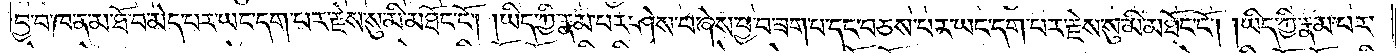བྱ་བ་ཁ་ན་མ་ཐོ་བ་མེད་པར་ཡང་དག་པར་རྗེས་སུ་མི་མཐོང་ངོ༌། །ཡིད་ཀྱི་རྣམ་པར་ཤེས་པ་ཞེས་བྱ་བ་ཟག་པ་དང་བཅས་པར་ཡང་དག་པར་རྗེས་སུ་མི་མཐོང་ངོ༌། །ཡིད་ཀྱི་རྣམ་པར་
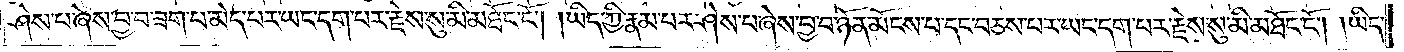ཤེས་པ་ཞེས་བྱ་བ་ཟག་པ་མེད་པར་ཡང་དག་པར་རྗེས་སུ་མི་མཐོང་ངོ༌། །ཡིད་ཀྱི་རྣམ་པར་ཤེས་པ་ཞེས་བྱ་བ་ཉོན་མོངས་པ་དང་བཅས་པར་ཡང་དག་པར་རྗེས་སུ་མི་མཐོང་ངོ༌། །ཡིད་
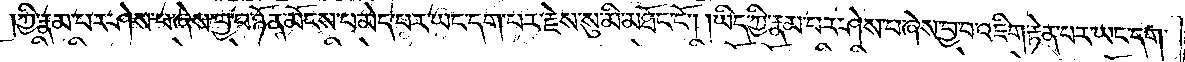ཀྱི་རྣམ་པར་ཤེས་པ་ཞེས་བྱ་བ་ཉོན་མོངས་པ་མེད་པར་ཡང་དག་པར་རྗེས་སུ་མི་མཐོང་ངོ༌། །ཡིད་ཀྱི་རྣམ་པར་ཤེས་པ་ཞེས་བྱ་བ་འཇིག་རྟེན་པར་ཡང་དག་
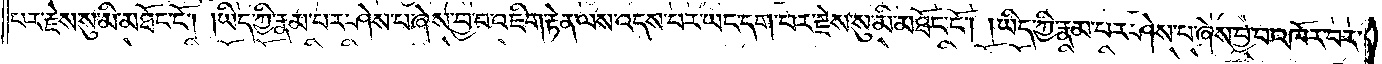པར་རྗེས་སུ་མི་མཐོང་ངོ༌། །ཡིད་ཀྱི་རྣམ་པར་ཤེས་པ་ཞེས་བྱ་བ་འཇིག་རྟེན་ལས་འདས་པར་ཡང་དག་པར་རྗེས་སུ་མི་མཐོང་ངོ༌། །ཡིད་ཀྱི་རྣམ་པར་ཤེས་པ་ཞེས་བྱ་བ་འཁོར་བར་
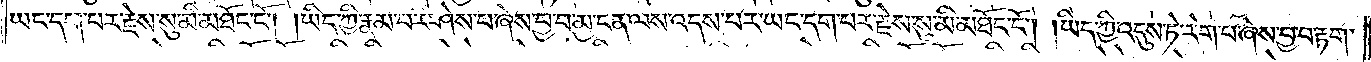ཡང་དག་པར་རྗེས་སུ་མི་མཐོང་ངོ༌། །ཡིད་ཀྱི་རྣམ་པར་ཤེས་པ་ཞེས་བྱ་བ་མྱ་ངན་ལས་འདས་པར་ཡང་དག་པར་རྗེས་སུ་མི་མཐོང་ངོ༌། །ཡིད་ཀྱི་འདུས་ཏེ་རེག་པ་ཞེས་བྱ་བ་རྟག་
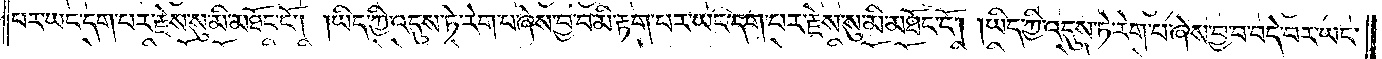པར་ཡང་དག་པར་རྗེས་སུ་མི་མཐོང་ངོ༌། །ཡིད་ཀྱི་འདུས་ཏེ་རེག་པ་ཞེས་བྱ་བ་མི་རྟག་པར་ཡང་དག་པར་རྗེས་སུ་མི་མཐོང་ངོ༌། །ཡིད་ཀྱི་འདུས་ཏེ་རེག་པ་ཞེས་བྱ་བ་བདེ་བར་ཡང་
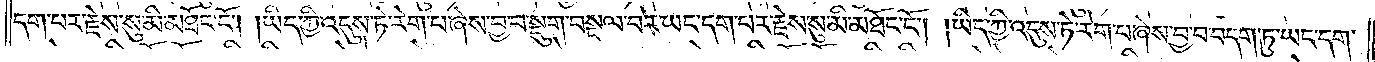དག་པར་རྗེས་སུ་མི་མཐོང་ངོ༌། །ཡིད་ཀྱི་འདུས་ཏེ་རེག་པ་ཞེས་བྱ་བ་སྡུག་བསྔལ་བར་ཡང་དག་པར་རྗེས་སུ་མི་མཐོང་ངོ༌། །ཡིད་ཀྱི་འདུས་ཏེ་རེག་པ་ཞེས་བྱ་བ་བདག་ཏུ་ཡང་དག་
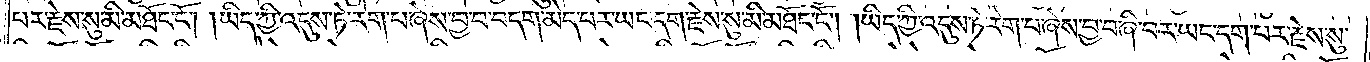པར་རྗེས་སུ་མི་མཐོང་ངོ༌། །ཡིད་ཀྱི་འདུས་ཏེ་རེག་པ་ཞེས་བྱ་བ་བདག་མེད་པར་ཡང་དག་རྗེས་སུ་མི་མཐོང་ངོ༌། །ཡིད་ཀྱི་འདུས་ཏེ་རེག་པ་ཞེས་བྱ་བ་ཞི་བར་ཡང་དག་པར་རྗེས་སུ་
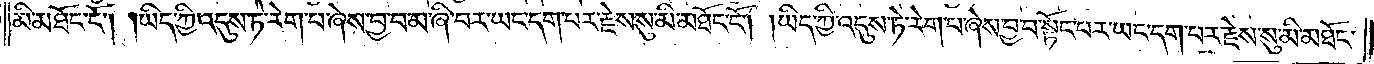མི་མཐོང་ངོ༌། །ཡིད་ཀྱི་འདུས་ཏེ་རེག་པ་ཞེས་བྱ་བ་མ་ཞི་བར་ཡང་དག་པར་རྗེས་སུ་མི་མཐོང་ངོ༌། །ཡིད་ཀྱི་འདུས་ཏེ་རེག་པ་ཞེས་བྱ་བ་སྟོང་པར་ཡང་དག་པར་རྗེས་སུ་མི་མཐོང་
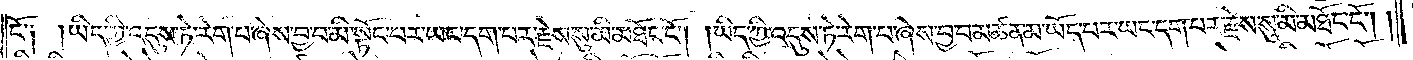ངོ༑ །ཡིད་ཀྱི་འདུས་ཏེ་རེག་པ་ཞེས་བྱ་བ་མི་སྟོང་པར་ཡང་དག་པར་རྗེས་སུ་མི་མཐོང་ངོ༌། །ཡིད་ཀྱི་འདུས་ཏེ་རེག་པ་ཞེས་བྱ་བ་མཚན་མ་ཡོད་པར་ཡང་དག་པར་རྗེས་སུ་མི་མཐོང་ངོ༌། །
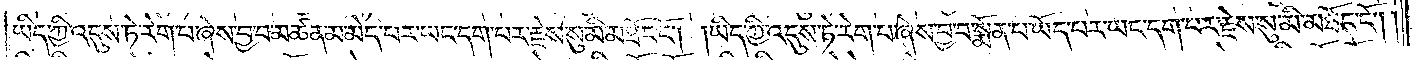ཡིད་ཀྱི་འདུས་ཏེ་རེག་པ་ཞེས་བྱ་བ་མཚན་མ་མེད་པར་ཡང་དག་པར་རྗེས་སུ་མི་མཐོང་ངོ༌། །ཡིད་ཀྱི་འདུས་ཏེ་རེག་པ་ཞེས་བྱ་བ་སྨོན་པ་ཡོད་པར་ཡང་དག་པར་རྗེས་སུ་མི་མཐོང་ངོ༌། །
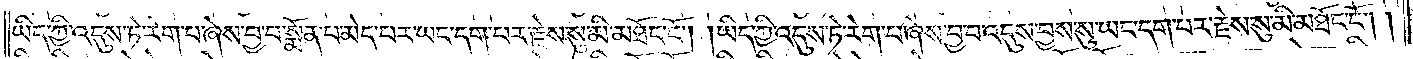ཡིད་ཀྱི་འདུས་ཏེ་རེག་པ་ཞེས་བྱ་བ་སྨོན་པ་མེད་པར་ཡང་དག་པར་རྗེས་སུ་མི་མཐོང་ངོ༌། །ཡིད་ཀྱི་འདུས་ཏེ་རེག་པ་ཞེས་བྱ་བ་འདུས་བྱས་སུ་ཡང་དག་པར་རྗེས་སུ་མི་མཐོང་ངོ༌། །
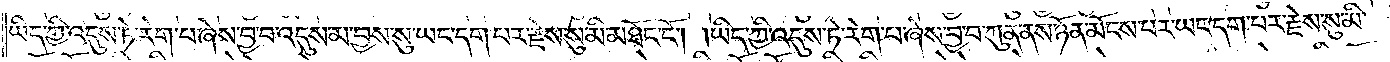ཡིད་ཀྱི་འདུས་ཏེ་རེག་པ་ཞེས་བྱ་བ་འདུས་མ་བྱས་སུ་ཡང་དག་པར་རྗེས་སུ་མི་མཐོང་ངོ༌། །ཡིད་ཀྱི་འདུས་ཏེ་རེག་པ་ཞེས་བྱ་བ་ཀུན་ནས་ཉོན་མོངས་པར་ཡང་དག་པར་རྗེས་སུ་མི་
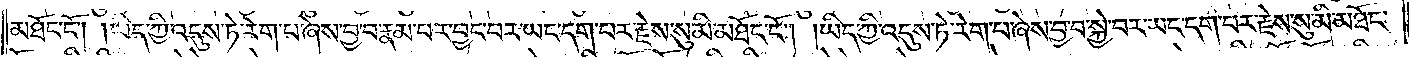མཐོང་ངོ༌། །ཡིད་ཀྱི་འདུས་ཏེ་རེག་པ་ཞེས་བྱ་བ་རྣམ་པར་བྱང་བར་ཡང་དག་པར་རྗེས་སུ་མི་མཐོང་ངོ༌། །ཡིད་ཀྱི་འདུས་ཏེ་རེག་པ་ཞེས་བྱ་བ་སྐྱེ་བར་ཡང་དག་པར་རྗེས་སུ་མི་མཐོང་
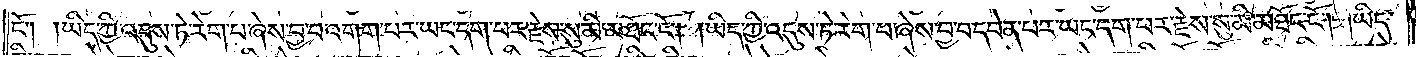ངོ༌། །ཡིད་ཀྱི་འདུས་ཏེ་རེག་པ་ཞེས་བྱ་བ་འགག་པར་ཡང་དག་པར་རྗེས་སུ་མི་མཐོང་ངོ༌། །ཡིད་ཀྱི་འདུས་ཏེ་རེག་པ་ཞེས་བྱ་བ་དབེན་པར་ཡང་དག་པར་རྗེས་སུ་མི་མཐོང་ངོ༌། །ཡིད་
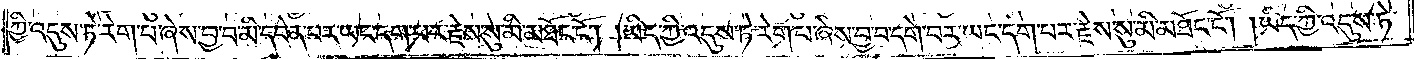ཀྱི་འདུས་ཏེ་རེག་པ་ཞེས་བྱ་བ་མི་དབེན་པར་ཡང་དག་པར་རྗེས་སུ་མི་མཐོང་ངོ༌། །ཡིད་ཀྱི་འདུས་ཏེ་རེག་པ་ཞེས་བྱ་བ་དགེ་བར་ཡང་དག་པར་རྗེས་སུ་མི་མཐོང་ངོ༌། །ཡིད་ཀྱི་འདུས་ཏེ་
